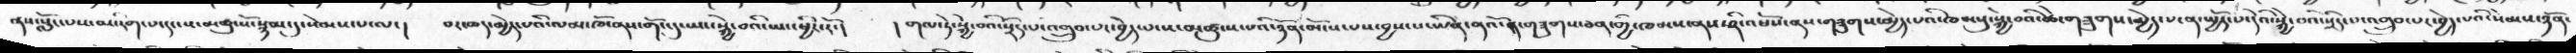ནས་སློང་པས་མ་རིག་པ་དང་ས་མཚུངསོ་སྙམ་དུ་སེམས་པ་ལ་།   བར་ཆད་མྱེད་པའི་ལམ་ཁོ་ནས་གོང་དུ་ཡང་སྐྱེ་བའི་ཡང་ཕྱིར་རོ་།   ། གལ་ཏེ་སྐྱེ་བའི་སྲིད་པ་འགྲུབ་པར་བྱེད་པ་ས་མཚུངས་པའི་ཉོན་མོངས་པས་བྱས་པ་ཡིན་ནའོ་ན་་གཟུགས་ཅན་གྱི་ཁམས་ནས་ཤི་འཕོས་ནས་གཟུགས་མྱེད་པའི་ཁམསུ་སྐྱེ་བའི་ཚེ་གཟུགས་མྱེད་པ་ན་སྤྱོད་པ་དེའི་སྐྱེ་བའི་སྲིད་པ་འགྲུབ་པར་བྱེད་པའི་སེམས་ཉོན་
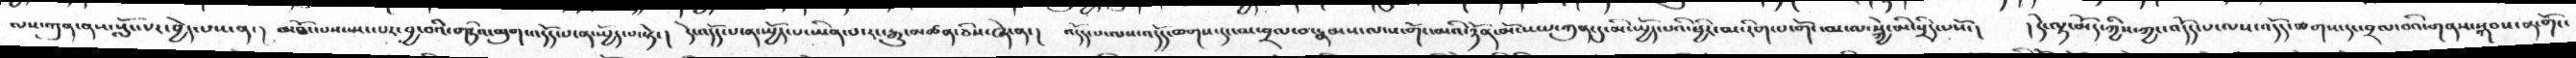ལས་ཀུན་ནས་སློང་པར་བྱེད་པས་ན་།  མཐོང་པས་སྤང་པར་བྱ་བའི་གཏིའ་མུག་འདོད་པ་ན་སྤྱོད་པ་སྟེ་།  དེ་འདོད་པ་ན་སྤྱོད་པ་ཡིན་པ་རང་རྒུ་མཚན་ཅིས་ཞེ་ན་།  འདོད་པ་ལས་འདོད་ཆགས་དང་མ་བྲལ་བ་རྣམས་ལ་ས་གོང་མའི་ཉོན་མོངས་པ་ཀུན་དུ་མི་སྤྱོད་པའི་ཕྱིར་མ་རིག་པ་གོང་མ་ལ་སྐྱེ་མི་སྲིད་པསོ་།   །དེ་ལྟ་མོད་ཀྱིས་ཀྱང་འོདད་པ་ལས་འདོད་ཆགས་དང་བྲལ་བའི་གནས་སྐབས་ན་གོང་
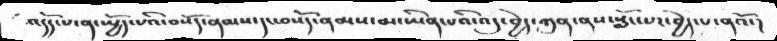འདོད་པ་ན་སྤྱོད་པའི་བསོད་ནམས་དང་བསོད་ནམས་མ་ཡིན་པའི་འདུ་བྱེད་ཀུན་ནས་སློང་པར་བྱེད་པ་ནའོ་།
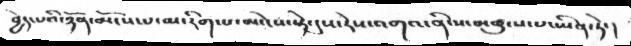བྱེད་པའི་ཉོན་མོངས་པ་མ་རིག་པ་མ་ངེས་སྟེ་དུས་རེས་འགའ་ནི་ས་མཚུངས་པ་ཡིན་ཏེ་།
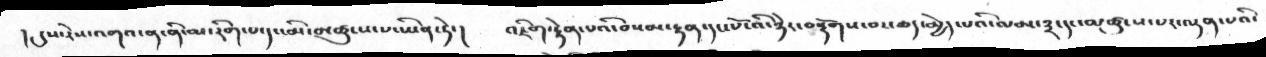།  དུས་རེས་འགའ་ན་ནི་མ་རིག་པ་དང་མི་མཚུངས་པ་ཡིན་ཏེ་།   འཇིག་རྟེན་པའི་བསམ་རྟན་དང་པོ་འི་ཉེར་བསྡོགས་བར་ཆད་མྱེད་པའི་ལམ་༣་དང་མཚུངས་པར་ལྡན་པའི་
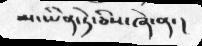མ་ཡིན་ཏེ་ཅིས་ཞེ་ན་།
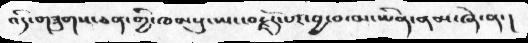འདི་གཟུགས་ཅན་གྱི་ཁམསུ་ཡང་བརྗོད་པར་བྱ་བ་མ་ཡིན་ནམ་ཞེ་ན་།
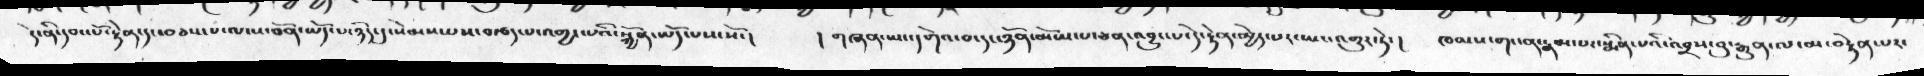དེ་ནི་དབང་པོ་རྟེན་དང་བཅས་པ་ལ་ས་བོན་ཡོད་པ་ཉིད་དུ་སེམས་པས་བརྩད་པ་འགྱང་པའི་སྐྱོན་ཡོད་པས་སོ་།    །གཞན་ཡང་དགེའ་བ་དང་ཉོན་མོངས་པ་ཅན་འབྱུང་པ་དེ་རྟེན་མྱེད་པར་ཡང་འགྱུར་ཏེ་།  ཁམས་གང་ན་རྣམ་པར་སྨིན་པའི་འབྲས་བུ་རྒྱུན་ལ་མ་བརྟེན་པར་
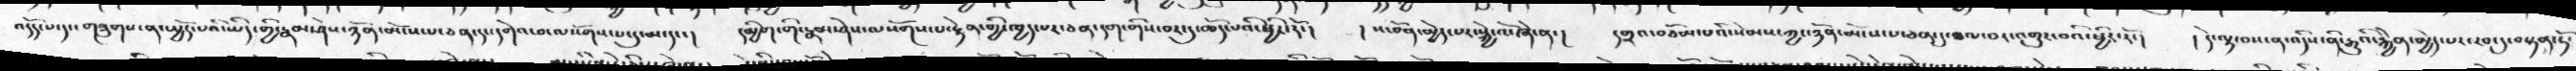འདོད་པ་དང་གཟུགས་ན་སྤྱོད་པའི་ཡིད་གྱི་རྣམ་ཤེས་ཉོན་མོངས་པ་ཅན་དང་དགེའ་བ་ལསོགས་པ་དུ་མ་དང་།   དམྱིག་གི་རྣམ་ཤེས་ལསོགས་་པ་རྟེན་གྱི་ཁྱད་པར་ཅན་དག་གིས་བར་དུ་ཆོད་པའི་ཕྱིར་རོ་།   །ས་བོན་མྱེད་པར་སྐྱེ་འོ་ཞེ་ན་།   དགྲའ་བཅོམ་པའི་སེམས་ཀྱང་ཉོན་མོངས་པ་ཅན་དུ་ཐལ་བར་འགྱུར་བའི་ཕྱིར་རོ་།  །དེ་ལྟ་བས་ན་འདིས་ནི་རྒྱུའི་རྐྱེན་མྱེད་པར་རབ་དུ་བསྟན་ཏོ་
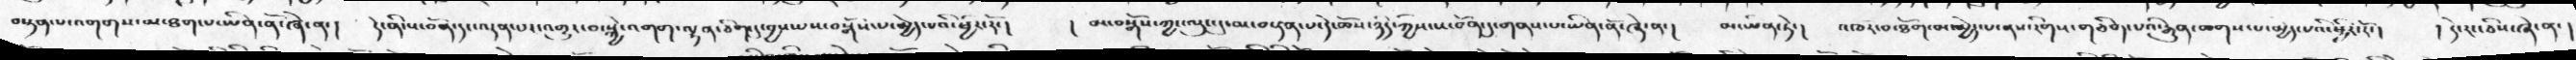བསྟན་པ་འགགས་མ་ཐག་པ་ཡིན་ནོ་ཞེ་ན་།  དེ་ནི་ས་བོན་དང་ལྡན་པར་འགྱུར་བ་སྐྱེ་འགག་ལྷན་ཅིག་དུ་བྱས་པས་བསྒོས་པ་མྱེད་པའི་ཕྱིར་རོ་།   ། མ་བསྒོས་ཀྱང་ལུང་དུ་མ་བསྟན་པ་དེ་ཆོས་ཉིད་ཀྱིས་ས་བོན་དུ་གནས་པ་ཡིན་ནོ་ཞེ་ན།  མ་ཡིན་ཏེ་།  འཁོར་བ་ཐོག་མ་མྱེད་པ་ནས་རིགས་གཅིག་པའི་རྒྱུན་ཆགས་པ་མྱེད་པའི་ཕྱིར་རོ་།   །དེ་རང་ཅིས་ཞེ་ན་
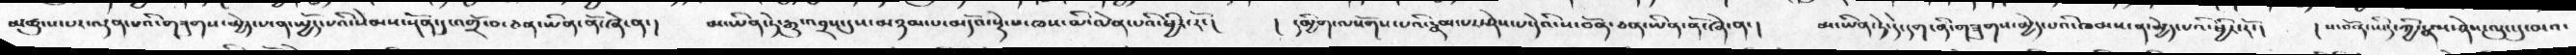མཚུངས་པར་ལྡན་པའི་གཟུགས་མྱེད་པ་ན་སྤྱོད་པའི་སེམས་སྔོན་དུ་འགྲོ་བ་ཅན་ཡིན་ནོ་ཞེ་ན་།  མ་ཡིན་ཏེ་རྒྱུ་འབྲས་དུས་མཉམ་པ་མདོའ་སྡེ་པ་ཁས་མི་ལེན་པའི་ཕྱིར་རོ་།   །དམྱིག་ལསོགས་པའི་རྣམ་པར་ཤེས་པ་དེའི་ས་བོན་ཅན་་ཡིན་ནོ་ཞེ་ན་།  མ་ཡིན་ཏེ་དེ་དག་ནི་གཟུགས་མྱེད་པའི་ཁམས་ན་མྱེད་པའི་ཕྱིར་རོ་།  ། ས་བོན་ཡིད་ཀྱི་རྣམ་ཤེས་ལུང་དུ་མའ
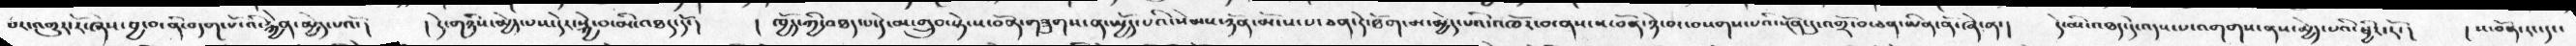བར་འགྱུར་རོ་ཞེས་བྱ་བ་ནི་བདག་པོ་འི་རྐྱེན་མྱེད་པའོ་།   ། དེ་གཉིས་མྱེད་པས་དེར་སྐྱེ་བ་མི་འཐད་དོ་།  ། ཁྱོད་ཀྱི་འཐད་པ་དེ་མ་གྲུབ་སྟེ་ས་བོན་གཟུགས་ན་སྤྱོད་པའི་སེམས་ཉོན་མོངས་པ་ཅན་དེ་ཐོག་མ་མྱེད་པའི་འཁོར་བ་ནས་ས་བོན་ཉེ་བར་བསགས་པའི་སྔོན་དུ་འགྲོ་བ་ཅན་ཡིན་ནོ་ཞེ་ན་།   དེ་མི་འཐད་དེ་འདས་པ་འགགས་ནས་མྱེད་པའི་ཕྱིར་རོ་།    ། ས་བོན་རང་དང་
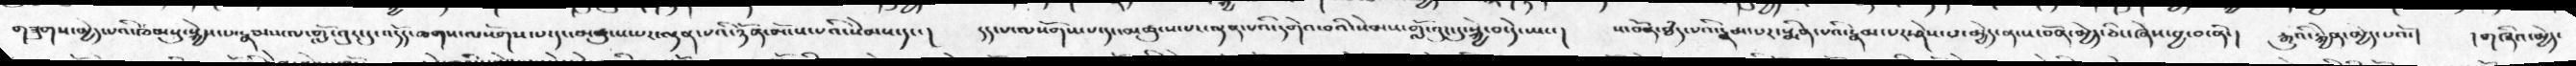གཟུགས་མྱེད་པའི་ཁམསུ་སྐྱེས་པ་རྣམས་ལ་གློ་བུར་དུ་འདོད་ཆགས་ལསོགས་པ་དང་མཚུངས་པར་ལྡན་པའི་ཉོན་མོངས་པའི་སེམས་དང་།   དད་པ་ལསོགས་པ་དང་མཚུངས་པར་ལྡན་པའི་དགེའ་བའི་སེམས་གློ་བུར་དུ་སྐྱེ་བ་དེ་ཡང་།     ས་བོན་ཐཾད་པའི་རྣམ་པར་སྨིན་པའི་རྣམ་པར་ཤེས་པ་མྱེད་ན་ས་བོན་མྱེད་ཅིང་ཞེས་བྱ་བ་ནི་།    རྒྱུའི་རྐྱེན་མྱེད་པའོ་།    །  གཞིའ་མྱེད་
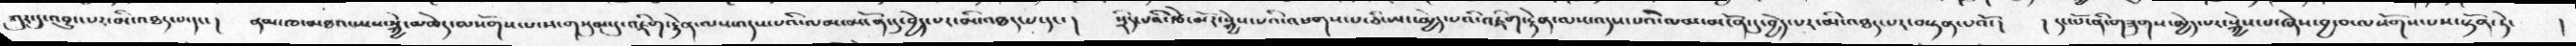ཀུར་དུ་འབྱུང་བར་མི་འཐད་པ་དང་།    ནམ་ཁ་མཐའ་ཡས་སྐྱེ་མཆེད་ལསོགས་པ་ས་གསུམ་དུ་འཇིག་རྟེན་ལས་འདས་པའི་ལམ་མངོན་དུ་བྱེད་པར་མི་འཐད་པ་དང་།    སྲིད་པའི་རྩེ་མོར་སྐྱེས་པའི་འཕགས་པ་ཅི་ཡང་མྱེད་པའི་འཇིག་རྟེན་ལས་འདས་པའི་ལམ་མངོན་དུ་བྱེད་པར་མི་འཐད་པར་བསྟན་པའོ་།    ། དང་པོ་ནི་གཟུགས་མྱེད་པར་སྐྱེས་པ་ཞེས་བྱ་བ་ལསོགས་པས་སྟོན་ཏེ་  །
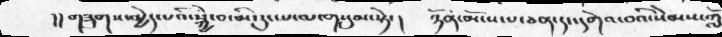།། གཟུགས་མྱེད་པའི་སྐྱེ་བ་མི་རུང་པ་ལ་གསུམ་སྟེ་།    ཉོན་མོངས་པ་ཅན་དང་དགེའ་བའི་སེམས་ཀློ
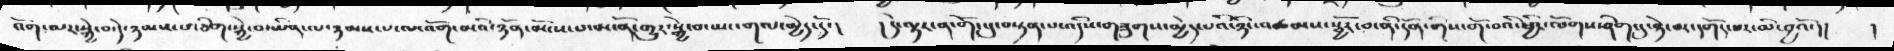འོག་མར་སྐྱེ་བ་དེ་ཉམས་པ་ཅིག་སྐྱེ་བ་ཡིན་ལ་ཉམས་པ་ལ་འོག་མའི་ཉོན་མོངས་པ་མངོན་གྱུར་སྐྱེ་བ་ཡང་གལ་མྱེད་དོ་།   ། དེ་ལྟར་ན་གོང་དུ་བསྟན་པ་འདིས་གཟུགས་མྱེད་པའི་ཉིང་འཚམས་སྦྱོར་བ་ནི་དོན་གིས་གོ་བའི་ཕྱིར་ལོགས་ཤིག་དུ་ཉེ་བར་དགོད་པར་མི་བྱའོ་།།   །
